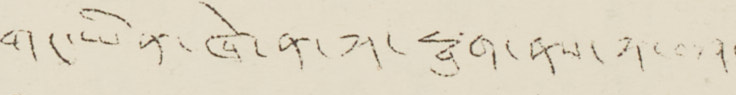གང་ཡིན་ཞེ་ན་ཀ་སྤུག་ནས་ཀ་བཤད་
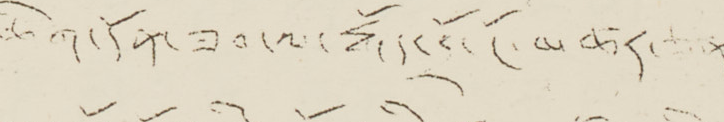ཆིག་དོན་ཟབ་ལ་རྒོད་བོ་ངོ་མཚར་ཅན
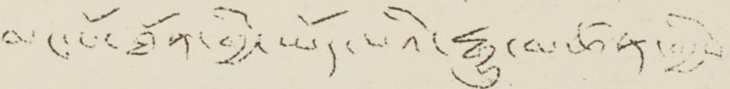མང་པོ་ཐོན་གྱི་ཡོད་པའི་རྒྱུ་མཚན་གྱིས་
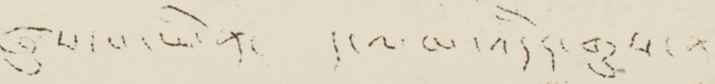ཞུགས་པ་ཡིན། ད་ལམ་འདིར་གུས་ནས
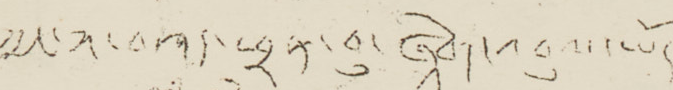ཀྱང་ཀ་བཤད་ཕྲན་བུ་ཞིག་འབུལ་ཡོད་པས་
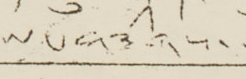འདི་ཇོ་ཨང་གཟིགས།
